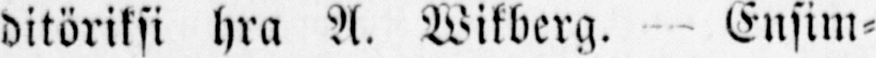ditöriksi hra A. Wikberg. — Ensim-
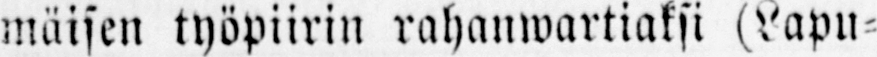mäisen työpiirin rahanwartiaksi (Lapu-
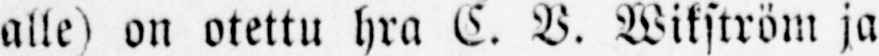alle) on otettu hra C. V. Wikström ja
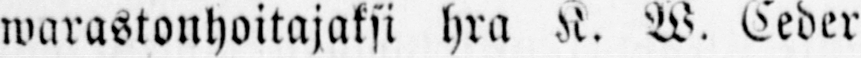warastonhoitajaksi hra K. W. Ceder-
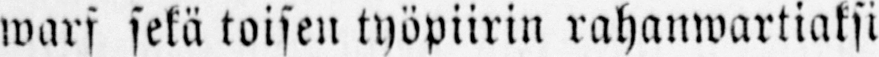warf sekä toisen työpiirin rahanwartiaksi
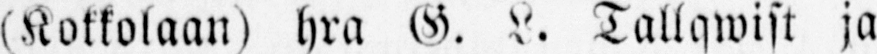(Kokkolaan) hra G. L. Tallqwist ja
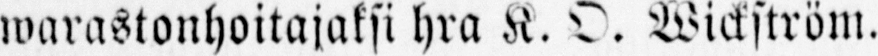warastonhoitajaksi hra K. O. Wickström.
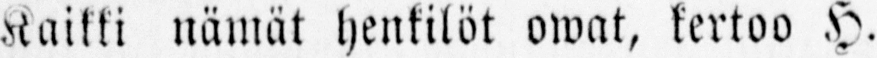Kaikki nämät henkilöt owat, kertoo H.
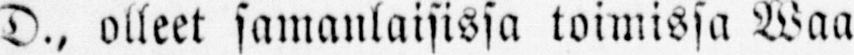D., olleet samanlaisissa toimissa Waa-
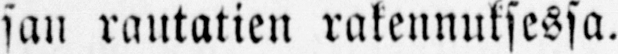san rautatien rakennuksessa.
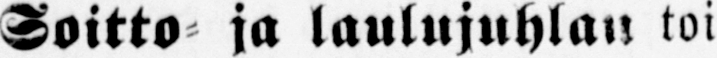— Soitto- ja laulujuhlan toi-
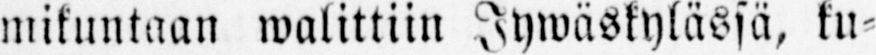mikuntaan walittiin Jywäskylässä, ku-
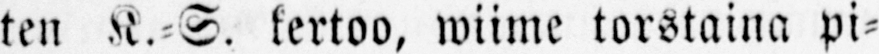ten K.-S. kertoo, wiime torstaina pi-
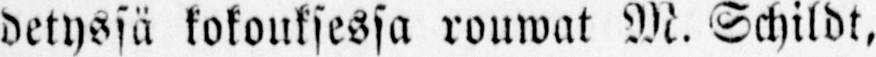detyssä kokouksessa rouwat M. Schildt,
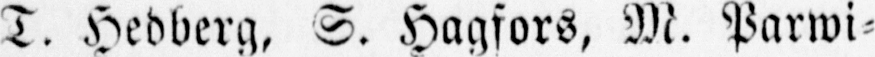T. Hedberg, S. Hagfors, M. Parwi-
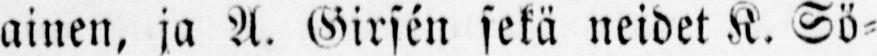ainen, ja A. Girsén sekä neidet K. Sö-
